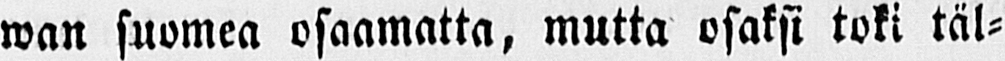wan suomea osaamatta, mutta osaksi toki täl-
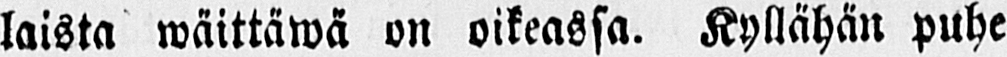laista wäittäwä on oikeassa. Kyllähän puhe
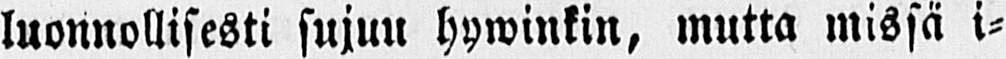luonnollisesti sujuu hywinkin, mutta missä i-
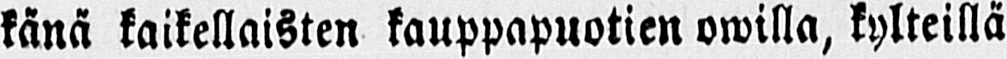känä kaikellaisten kauppapuotien owilla, kylteillä
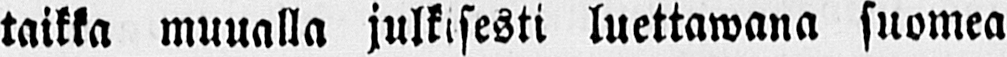taikka muualla julkisesti luettawana suomea
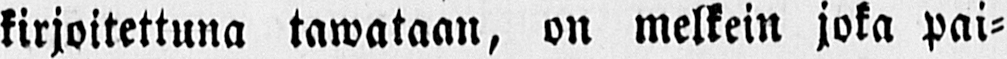kirjoitettuna tawataan, on melkein joka pai-
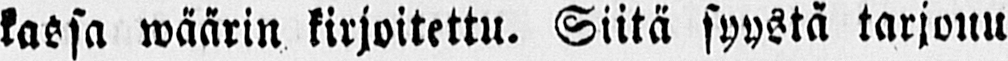kassa wäärin kirjoitettu. Siitä syystä tarjonu
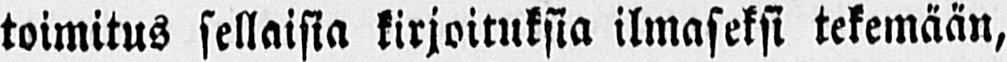toimitus sellaisia kirjoituksia ilmaseksi tekemään,
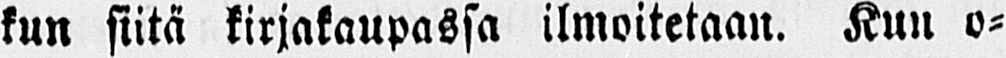kun siitä kirjakaupassa ilmoitetaan. Kun o-
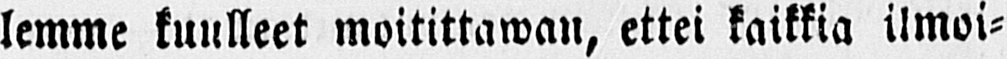lemme kuulleet moitittawan, ettei kaikkia ilmoi-
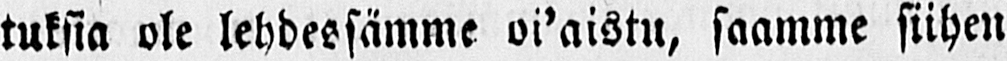tuksia ole lehdessämme oi'aistu, saamme siihen
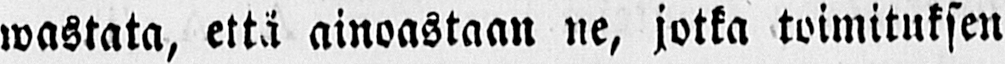wastata, että ainoastaan ne, jotka toimituksen
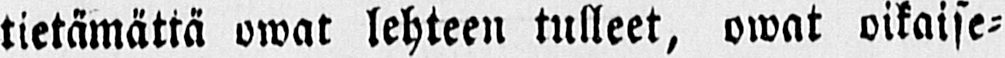tietämättä owat lehteen tulleet, owat oikaise-
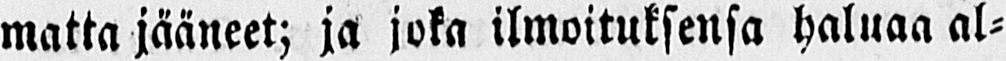matta jääneet; ja joka ilmoituksensa haluaa al-
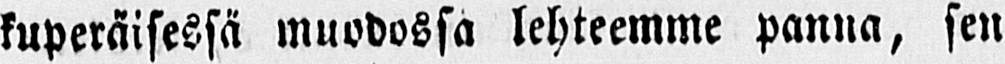kuperäisessä muodossa lehteemme panna, sen
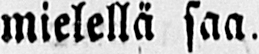mielellä saa.
